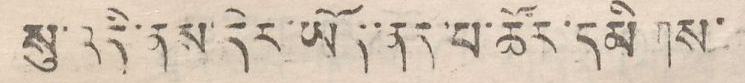སུ་འདི་ནས་དེར་ཡོད་ནད་མ་ཚོར་དམིགས་
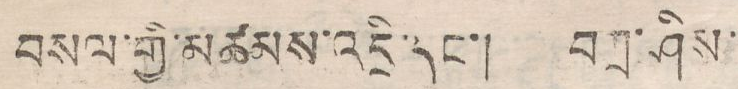བསལ་གྱི་མཚམས་འདྲི་དང་། བཀྲ་ཤིས་
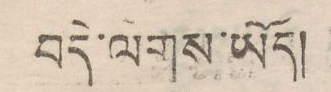བདེ་ལེགས་ཡོད།
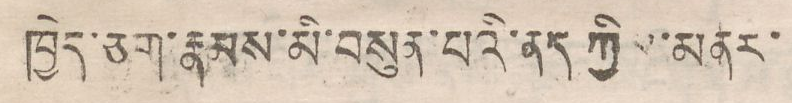ཁྱེད་ཅག་རྣམས་མི་བསུན་པའི་ནད ཀྱིས་མནར་
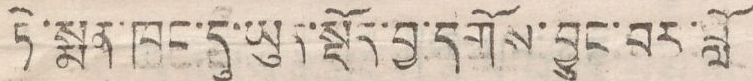ཏེ་སྨན་ཁང་དུ་ཡུན་སྡོད་བྱ་དགོས་བྱུང་བར་བློ
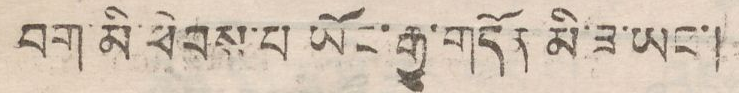བག་མི་ཕེབས་པ ཡོང་རྒྱུ་གདོན མི་ཟ་ཡང་།
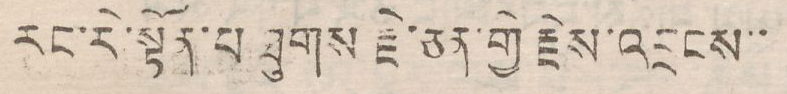རང་རེ་སྟོན་པ་ཐུགས་རྗེ་ཅན་གྱི་རྗེས་འབྲངས་་
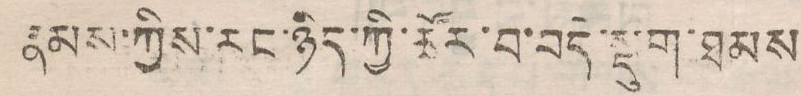རྣམས་ཀྱིས་རང་ཉིད་ཀྱི་ཚོར་བ་བདེ་སྡུག་ཐམས
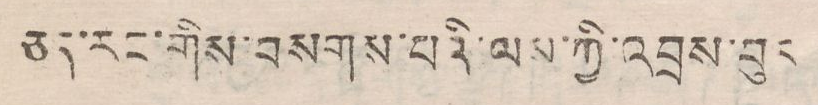ཅད་རང་གིས་བསགས་པའི་ལས་ཀྱི་འབྲས་བུར
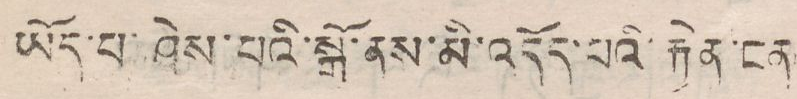ཡོད་པ་ཤེས་པའི་སྒོ་ནས་མི་འདོད་པའི་རྐྱེན་ངན
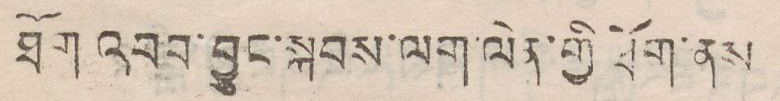ཐོག འབབ་བྱུང་སྐབས་ལག་ལེན་གྱི་ཐོག་ནས
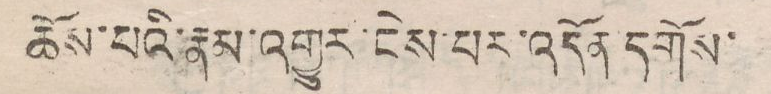ཆོས་པའི་རྣམ་འགྱུར་ངེས་པར་འདོན་དགོས་
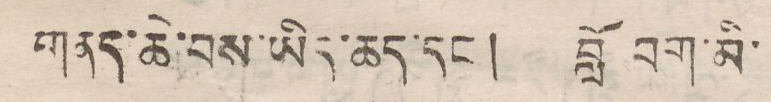གནད་ཆེ་བས་ཡིད་ཆད་དང་། བློ བག་མི་
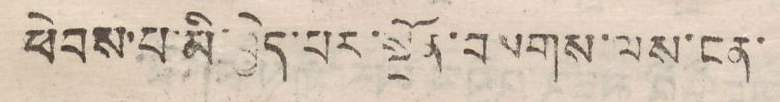ཕེབས་པ་མི་བྱེད་པར་སྔོན་བསགས་ལས་ངན་
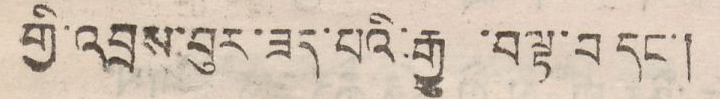གྱི་འབྲས་བུར་ཟད་པའི་རྒྱུ ་བལྟ་བ དང་།
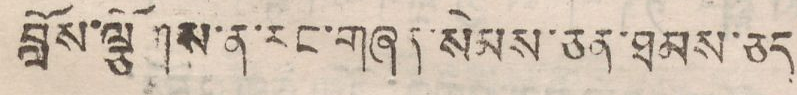བློས་ལྕོགས་ན་རང་གཞན་སེམས་ཅན་ཐམས་ཅད
